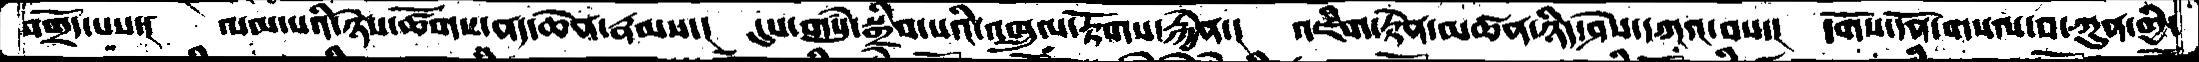བགྲོད་པས་།   ལམ་པའི་ཉེས་ཚོགས་ནད་ཆེན་རྣམས་།   དུས་གསུཾ་སྒྲིབ་པའི་འཁྲུལ་རྟོགས་རྐྱེན་།  འཇིག་རྟེན་མཚན་ཉིད་ཤེས་དཀའ་བས་།  དགོས་དོན་གསལ་བ་ཀུན་གྱི་
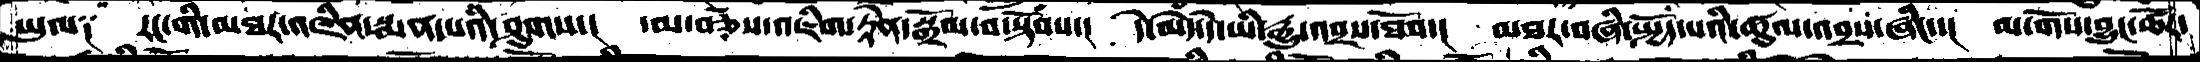ཡུལ༑    རང་གི་མཐར་འཛིན་སྨན་པའི་ཤུགས་།   ་མ་བཅོས་འཇིག་རྟེན་སྒྲོལ་བ་སྟོབས་།  དེ་མེད་དེ་ཡི་རྒྱུ་འབྲས་ཐོབ་།  མཐར་བཞི་སྤྱོད་པའི་ཚུལ་འབྲས་ཞིང་།  མ་གོས་བྱུང་ཚོར་
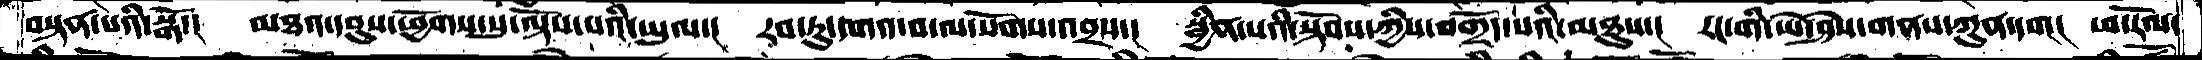བསྟན་པའི་སྒོ་།   མཐའ་དབུས་ཕྱོགས་སུ་ལྟོས་པའི་ཡུལ་།  རབ་ཏུ་དགའ་བ་ལ་སོགས་འབྲས་།   སྦྱིན་པའི་སྟོབས་ཀྱིས་བགྲོད་པའི་མཐུས་།   རང་གི་ཡེ་ཤེས་གནས་ཀུན་དག།  ཕ་རོལ་
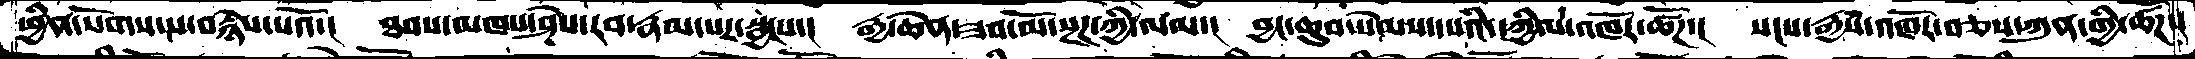ཕྱིན་སོགས་པ་བརྙེས་པའོ་།   ཐབས་མཁས་ཤེས་རབ་རྣམ་པར་སྦྱངས་།   རྒྱ་ཆེན་ཟབ་མོ་སྔཌ་ཀྱི་ལམ་།  བྱང་ཆུབ་སེམས་དཔའི་དཀྱིལ་འཁོར་ཚོཌ་།  སངས་རྒྱས་འཁོར་བཅས་ཀུན་གྱི་ཚོཌ་།
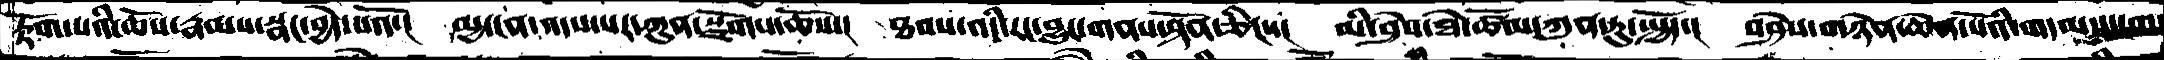རྟོག་པའི་ཆོས་རྣམས་སྣང་བྱེད་པའོ་།   མྱ་ངན་འདས་པར་ཀུན་སྫོགས་ཆོས་།   ཐབས་འདི་རང་བྱུང་གནས་སྟོན་ཅིང་།  མི་ཤེས་ཐེ་ཚོམ་ཀུན་ཏུ་སྤྱོད་།  བཤེས་གཉེན་ཆེན་པོའི་གདམས་ངག་
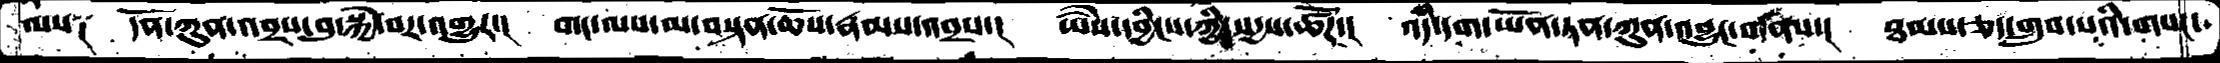ལས༑   དོན་ཀུན་འབྲས་བུ་སྐྱེ་བར་འགྱུར་།   གང་ལས་མ་བསྟན་ཆོས་རྣམས་འབྲས་།   ཡཻས་དབྱིངས་ཀྱི་སདྱས་ཚོཌ་།  འདི་དག་ཡོན་ཏན་ཀུན་འབྱུང་གནས་།  ཐམས་ཅད་གྲུབ་པའི་གསང་
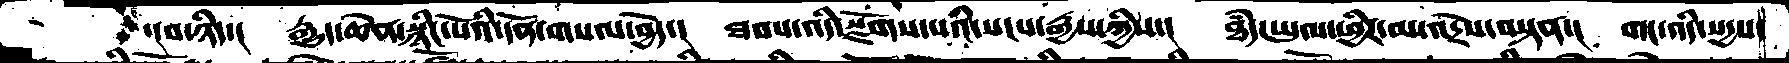།བ་ཉིད་།   རྒྱུད་ཆེན་སྙིང་པོའི་དོན་གསལ་བྱེད་།   ཐབས་འདི་སྫོགས་པའི་སངས་རྒྱས་ཀྱིས་།   ཐཾད་ཡུལ་ཕྱིར་མ་འདྲེས་བསྟན་།   གང་འདི་སདྱས་
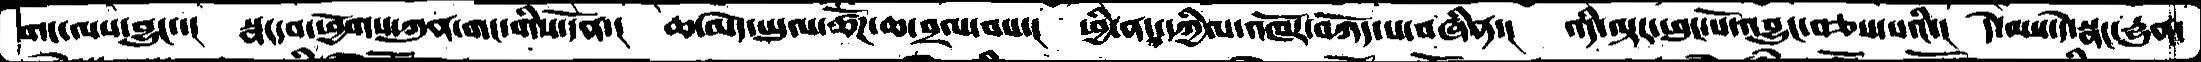གང་ལས་བྱུང་།   སྣང་བ་ཕྱོགས་ཀུན་གང་གིས་དོན་།  ཆ་མེད་ཡུལ་ཚོཌ་ཆ་བྲལ་བས་།  ཕྱི་ནང་དཀྱིལ་འཁོར་བཀོད་པ་བཞིན་།  འདི་ལྟར་ཕུང་པོ་འབྱུང་བཅས་པའི་།  དེ་ལས་དེ་སྣང་དྱུན་
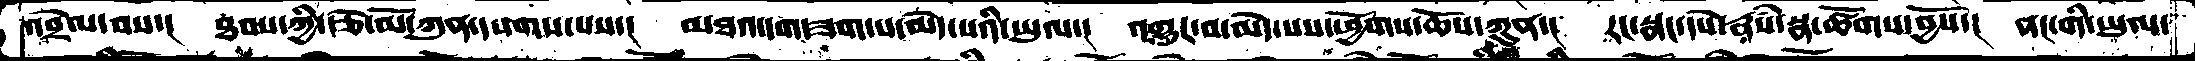འབྲེལ་བས་།  ཐབས་ཀྱི་རྩེ་མོ་ཀུན་དཔགས་པས་།  མཐའ་དག་ཟག་པ་མེད་པའི་ཡུལ་།  འགྱུར་བ་མེད་པས་ཕྱོགས་ཆོས་ཀུན་།  རང་སྣང་དཔེ་རྣཾས་སྣ་ཚོགས་བྱོས་།  ནང་གི་ཡུལ་
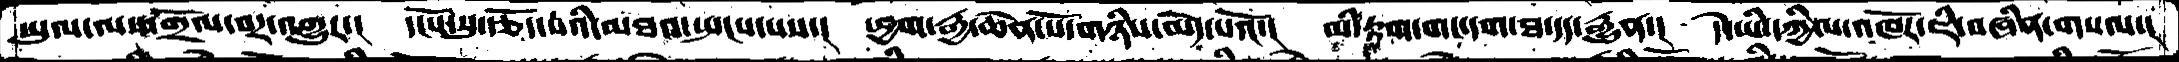ཡུལ་ལས་གྲོལ་བར་འགྱུར་།  དངོས་སུ་རྩོད་པའི་མཐའ་སྤངས་པས་།  ཕྱག་རྒྱ་ཆེན་པོ་གཉིས་མེད་པའོ་།  མི་རྟག་གང་དག་ཐ་དད་རྒྱུན་།  དེ་ཡི་དཀྱིལ་འཁོར་ཇི་བཞིན་གསལ་།
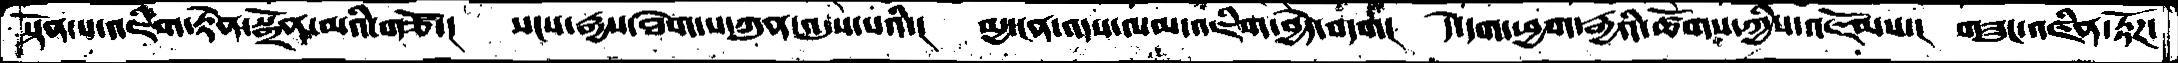སྟོན་པ་འཇིག་རྟེན་སྒྲོན་མའི་གཙོ་།  སངས་རྒྱས་ཐེག་པ་ཀུན་འདུས་པའི་།  མྱ་ངན་འདས་ལམ་འཇིག་བྱེད་བདག།  དེ་དག་ཕྱག་རྒྱའི་ཚོགས་ཀྱིས་འཇོམས་།  གཟུང་འཛིན་རྟོཌ
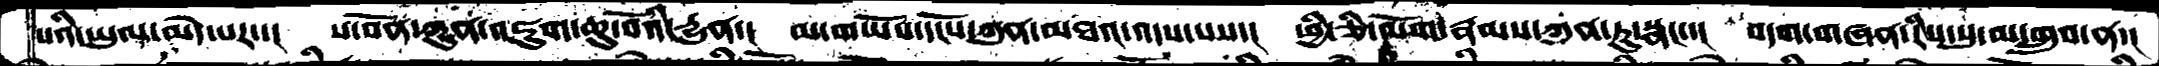པའི་ཡུལ་མེད་པར་།  ས་བོན་ཀུན་འཇུག་ཆུ་བོའི་དྱུན་།  མ་གཡོས་དངོས་ཀུན་མཐའ་འདས་པས་།  ཕྱི་ཅི་ལོག་རྣམས་ཀུན་ཏུ་སྣང་་།  བདག་གཞན་རིས་སུ་མ་གྲུབ་ན་།
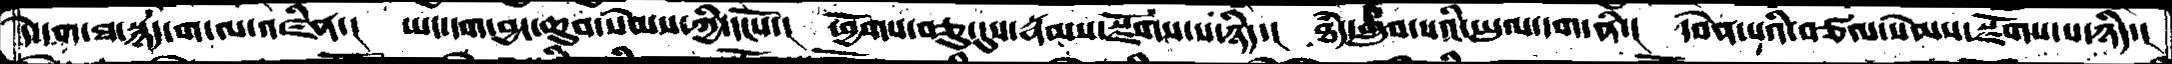དེ་དག་ཐ་སྙད་ག་ལ་འཛིན་།  ཡང་དག་བྱང་ཆུབ་སེམས་ཀྱི་དངོས་།  ཕྱོགས་བཅུ་དུས་རྣམས་སྫོགས་པ་ཉིད་།  ཐདཾ་གྲུབ་པའི་ཡུལ་དག་ནི་།  དབེན་པའི་བཙལ་སེམ་སསྫོགས་པ་ཉིད་།
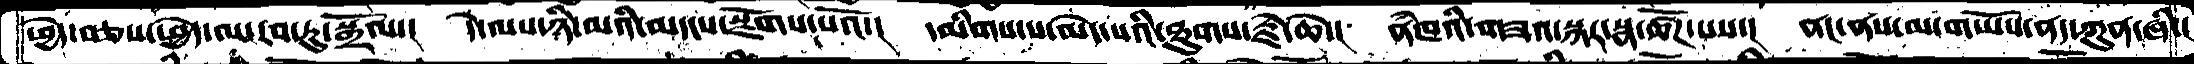ཕྱེད་བཅས་ཕྱེད་ལ་རབ་ཏུ་སྒྲོལ་།   དེ་ལས་ཉི་མའི་མདངས་སྫོགས་པའོ་།  དམིགས་པ་མེད་པའི་ཐུགས་རྗེ་ཆེ་།   ནཾཁའི་གཟའ་སྐར་སྣ་ཚོཌ་པས་།   ནང་ནས་མ་གཡོས་ནད་ཀུན་ཞི་།
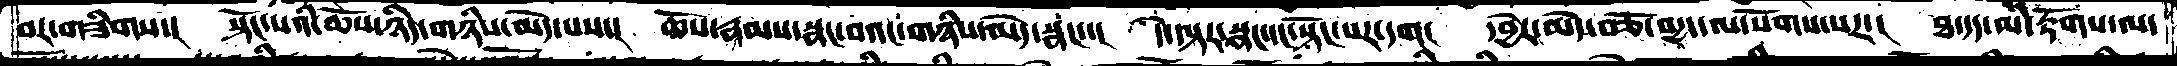བར་གཟིགས་།  སྟོང་པའི་ཆོས་ཉིད་གཉིས་མེད་པས་།  ཆོས་རྣམས་སྣང་བའང་གཉིད་མེད་སྣང་།   དེ་ལྟར་སྣང་དང་སྟོང་པར་དག།   དབྱེར་མེད་བཅོ་བདྱད་ལ་སོགས་པར་།   ཐ་དད་མི་རྟོགས་ལ་
